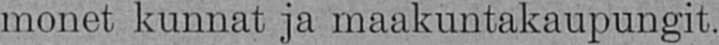monet kunnat ja maakuntakaupungit.
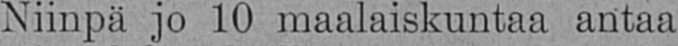Niinpä jo 10 maalaiskuntaa antaa
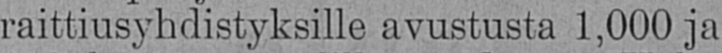raittiusyhdistyksille avustusta 1,000 ja
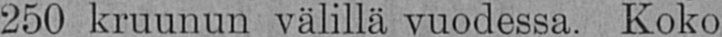250 kruunun välillä vuodessa. Koko
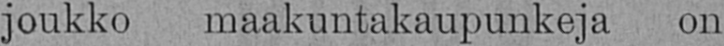joukko maakuntakaupunkeja on
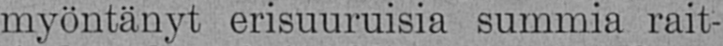myöntänyt erisuuruisia summia rait-
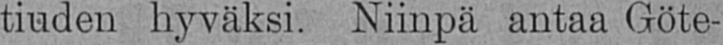tiuden hyväksi. Niinpä antaa Göte-
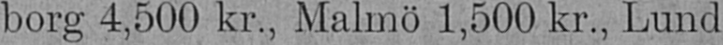borg 4,500 kr., Malmö 1,500 kr., Lund
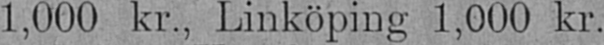1.000 kr., Linköping; 1,000 kr. Vii-
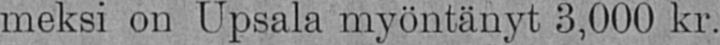meksi on Upsala myöntänyt 3,000 kr.
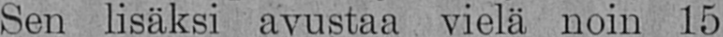Sen lisäksi avustaa vielä noin 15
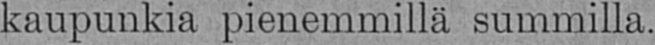kaupunkia pienemmillä summilla.
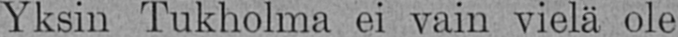Yksin Tukholma ei vain vielä ole
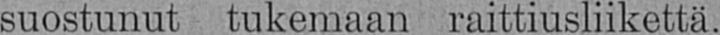suostunut tukemaan raittiusliikettä.
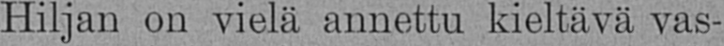Hiljan on vielä annettu kieltävä vas-
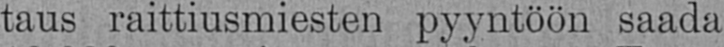taus raittiusmiesten pyyntöön saada
